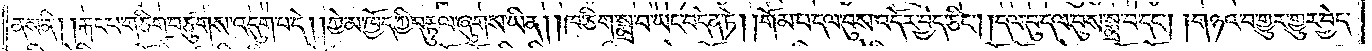ནས་ནི། །རྐང་པ་གཅིག་བཙུགས་འདུག་པ་དེ། །ཀྱེ་མ་ཁྱོད་ཀྱི་བརྟུལ་ཞུགས་ཡིན། །ཁ་ཅིག་སྨྲ་བ་ཡང་བདེན་ཏེ། །གོམ་པ་དལ་བུས་འདོར་བྱེད་ཅིང༌། །དལ་བུ་དལ་བུས་སྨྲ་བ་དང༌། །གཉའ་བ་གྱུར་གྱུར་བྱེད་
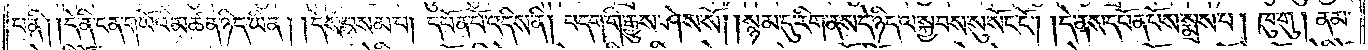པ་ནི། །དེ་ནི་ངན་གཡོའི་མཚན་ཉིད་ཡིན། །དེས་བསམ་པ། དཔོན་པོ་འདིས་ནི། བདག་གི་རྒྱུས་ཤེས་སོ། །སྙམ་དུ་རིག་ནས་དེ་ཉིད་ལ་སྐྱབས་སུ་སོང་ངོ༌། །དེ་ནས་དཔོན་པོས་སྨྲས་པ། ཁུ་གུ། ནམ་
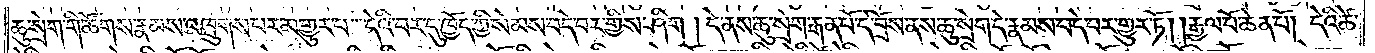ཆུ་སྲེག་གི་ཚོགས་རྣམས་འཁྲུགས་པར་མ་གྱུར་པ་དེའི་བར་དུ་ཁྱོད་ཀྱི་སེམས་བདེ་བར་གྱིས་ཤིག །དེ་ནས་ཆུ་སྲེག་རྒན་པོ་དེ་བྲོས་ནས་ཆུ་སྲེག་དེ་རྣམས་བདེ་བར་གྱུར་ཏོ། །རྒྱལ་པོ་ཆེན་པོ། དེའི་ཚེ་
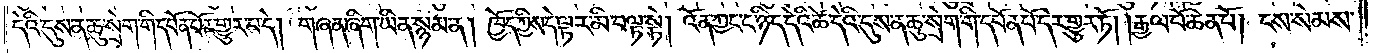དེའི་དུས་ན་ཆུ་སྲེག་གི་དཔོན་པོར་གྱུར་པ་དེ། གཞན་ཞིག་ཡིན་སྙམ་ན། ཁྱོད་ཀྱིས་དེ་ལྟར་མི་བལྟ་སྟེ། འོན་ཀྱང་ང་ཉིད་དེའི་ཚེ་དེའི་དུས་ན་ཆུ་སྲེག་གི་དཔོན་པོ་དེར་གྱུར་ཏོ། །རྒྱལ་པོ་ཆེན་པོ། ངས་སེམས་
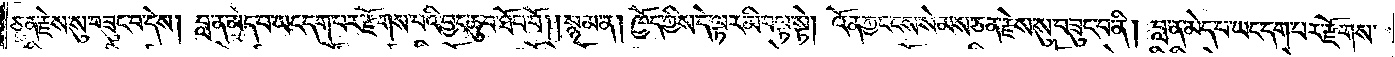ཅན་རྗེས་སུ་བཟུང་བ་དེས། བླ་ན་མེད་པ་ཡང་དག་པར་རྫོགས་པའི་བྱང་ཆུབ་ཐོབ་བོ། །སྙམ་ན། ཁྱོད་ཀྱིས་དེ་ལྟར་མི་བལྟ་སྟེ། འོན་ཀྱང་ངས་སེམས་ཅན་རྗེས་སུ་བཟུང་བ་ནི། བླ་ན་མེད་པ་ཡང་དག་པར་རྫོགས་
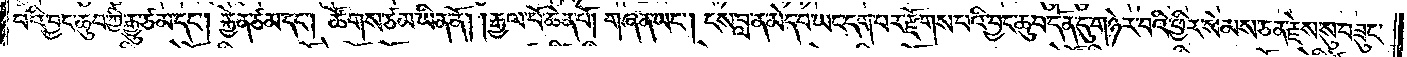པའི་བྱང་ཆུབ་ཀྱི་རྒྱུ་ཙམ་དང༌། རྐྱེན་ཙམ་དང༌། ཚོགས་ཙམ་ཡིན་ནོ། །རྒྱལ་པོ་ཆེན་པོ། གཞན་ཡང༌། ངས་བླ་ན་མེད་པ་ཡང་དག་པར་རྫོགས་པའི་བྱང་ཆུབ་དོན་དུ་གཉེར་བའི་ཕྱིར་སེམས་ཅན་རྗེས་སུ་བཟུང་
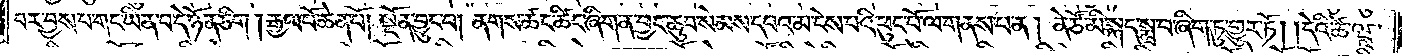བར་བྱས་པ་གང་ཡིན་པ་དེ་ཉོན་ཅིག །རྒྱལ་པོ་ཆེན་པོ། སྔོན་བྱུང་བ། ནགས་ཚང་ཚིང་ཞིག་ན་བྱང་ཆུབ་སེམས་དཔའ་མ་ངེས་པའི་ཕུང་པོ་ལ་གནས་པ་ན། ནེ་ཙོ་མི་སྐད་སྨྲ་བ་ཞིག་ཏུ་གྱུར་ཏོ། །དེའི་ཚེ་ཝཱ་
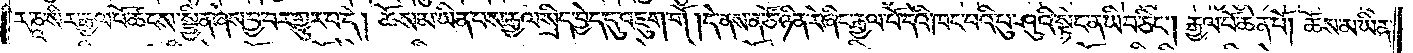ར་ཎཱ་སིར་རྒྱལ་པོ་ཚངས་སྦྱིན་ཞེས་བྱ་བར་གྱུར་པ་དེ། ཆོས་མ་ཡིན་པས་རྒྱལ་སྲིད་བྱེད་དུ་འཇུག་གོ །དེ་ནས་ནེ་ཙོ་ཉིན་རེ་ཞིང་རྒྱལ་པོ་དེའི་ཁང་པའི་པུ་ཤུའི་སྟེང་ན་ཡིབ་ཅིང༌། རྒྱལ་པོ་ཆེན་པོ། ཆོས་མ་ཡིན་
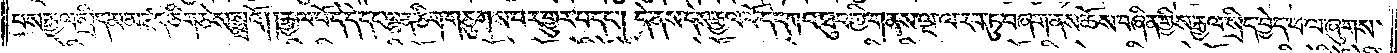པས་རྒྱལ་སྲིད་མ་མཛད་ཅིག་ཅེས་སྨྲའོ། །རྒྱལ་པོ་དེ་དེ་དང་ལྷན་ཅིག་གཅུགས་པར་གྱུར་པ་དང༌། དེ་ནས་དེས་རྒྱལ་པོ་དེ་དཀའ་ཐུབ་ཀྱི་གནས་ལྔ་ལ་རབ་ཏུ་བཞག་ནས་ཆོས་བཞིན་གྱིས་རྒྱལ་སྲིད་བྱེད་པ་ལ་ཞུགས་
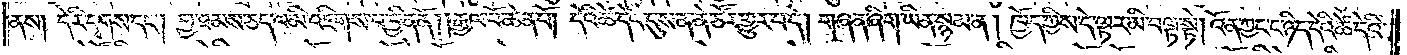ནས། དེ་རི་དྭགས་དང༌། བྱ་ཐམས་ཅད་ལ་མི་འཇིགས་པ་བྱིན་ནོ། །རྒྱལ་པོ་ཆེན་པོ། དེའི་ཚེ་དེའི་དུས་ན་ནེ་ཙོར་གྱུར་པ་དེ། གཞན་ཞིག་ཡིན་སྙམ་ན། ཁྱོད་ཀྱིས་དེ་ལྟར་མི་བལྟ་སྟེ། འོན་ཀྱང་ང་ཉིད་དེའི་ཚེ་དེའི་
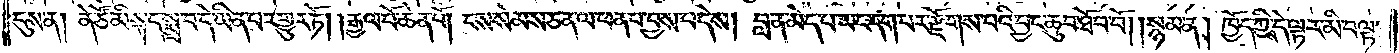དུས་ན། ནེ་ཙོ་མི་སྐད་སྨྲ་བ་དེ་ཡིན་པར་གྱུར་ཏོ། །རྒྱལ་པོ་ཆེན་པོ། ངས་སེམས་ཅན་ལ་ཕན་པ་བྱས་པ་དེས། བླ་ན་མེད་པ་ཡང་དག་པར་རྫོགས་པའི་བྱང་ཆུབ་ཐོབ་བོ། །སྙམ་ན། ཁྱོད་ཀྱིས་དེ་ལྟར་མི་བལྟ་
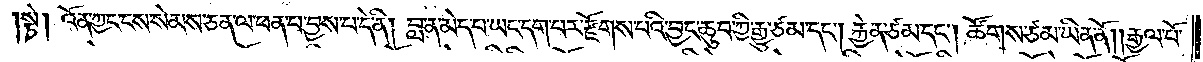སྟེ། འོན་ཀྱང་ངས་སེམས་ཅན་ལ་ཕན་པ་བྱས་པ་དེ་ནི། བླ་ན་མེད་པ་ཡང་དག་པར་རྫོགས་པའི་བྱང་ཆུབ་ཀྱི་རྒྱུ་ཙམ་དང༌། རྐྱེན་ཙམ་དང༌། ཚོགས་ཙམ་ཡིན་ནོ། །རྒྱལ་པོ་
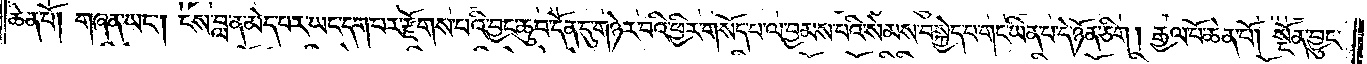ཆེན་པོ། གཞན་ཡང༌། ངས་བླ་ན་མེད་པར་ཡང་དག་པར་རྫོགས་པའི་བྱང་ཆུབ་དོན་དུ་གཉེར་བའི་ཕྱིར་གསོད་པ་ལ་བྱམས་པའི་སེམས་བསྐྱེད་པ་གང་ཡིན་པ་དེ་ཉོན་ཅིག། རྒྱལ་པོ་ཆེན་པོ། སྔོན་བྱུང་
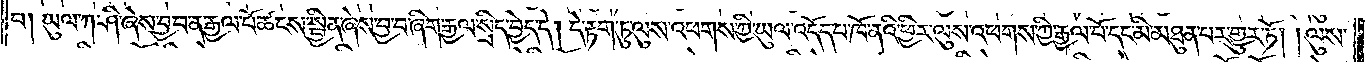བ། ཡུལ་ཀ་ཤི་ཞེས་བྱ་བ་ན་རྒྱལ་པོ་ཚངས་སྦྱིན་ཞེས་བྱ་བ་ཞིག་རྒྱལ་སྲིད་བྱེད་དེ། དེ་རྟག་ཏུ་ལུས་འཕགས་ཀྱི་ཡུལ་འདོད་པ་ཁོ་ནའི་ཕྱིར་ལུས་འཕགས་ཀྱི་རྒྱལ་པོ་དང་མི་མཐུན་པར་གྱུར་ཏོ། །ལུས་
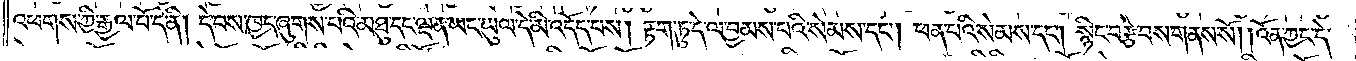འཕགས་ཀྱི་རྒྱལ་པོ་དེ་ནི། དེ་བས་ཁྱད་ཞུགས་པའི་མཐུ་དང་ལྡན་ཡང་ཡུལ་དེ་མི་འདོད་པས། རྟག་ཏུ་དེ་ལ་བྱམས་པའི་སེམས་དང༌། ཕན་པའི་སེམས་དང༌། སྙིང་བརྩེ་བས་གནས་སོ། །འོན་ཀྱང་དེ་
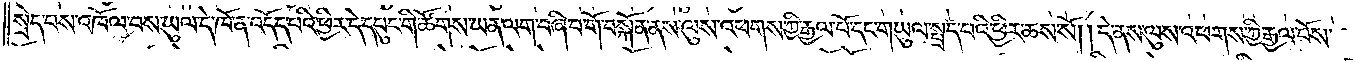སྲེད་པས་འཁོལ་བས་ཡུལ་དེ་ཁོ་ན་འདོད་པའི་ཕྱིར་དེ་དཔུང་གི་ཚོགས་ཡན་ལག་བཞི་པ་གོ་བསྐོན་ནས་ལུས་འཕགས་ཀྱི་རྒྱལ་པོ་དང་གཡུལ་སྤྲད་པའི་ཕྱིར་ཆས་སོ། །དེ་ནས་ལུས་འཕགས་ཀྱི་རྒྱལ་པོས་
